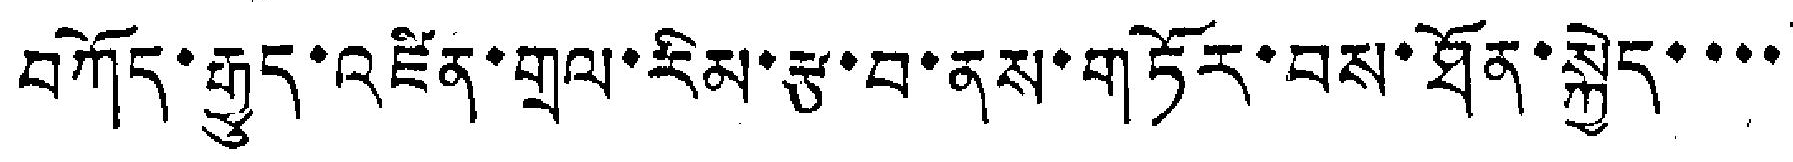བཀོད་རྒྱུད་འཛིན་གྲལ་རིམ་རྩ་བ་ནས་གཏོར་བས་ཐོན་སྐྱེད་་་་
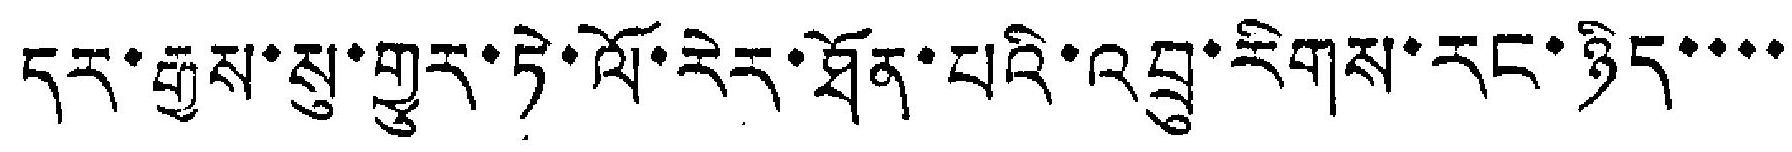དར་རྒྱས་སུ་གྱུར་ཏེ་ལོ་རེར་ཐོན་པའི་འབྲུ་རིགས་རང་ཉིད་་་་
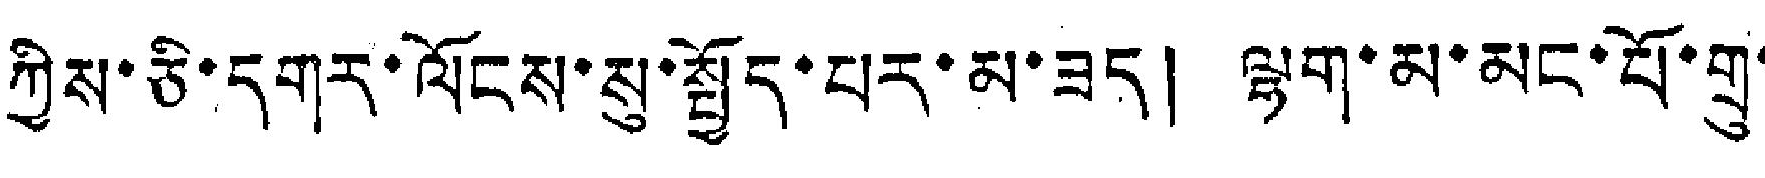ཀྱིས་ཅི་དགར་ལོངས་སུ་སྤྱོད་པར་མ་ཟད། ལྷག་མ་མང་པོ་གྲུ་
